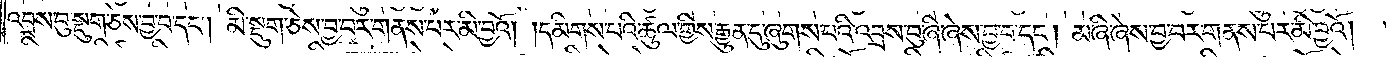འབྲས་བུ་སྡུག་ཅེས་བྱ་བ་དང༌། མི་སྡུག་ཅེས་བྱ་བར་གནས་པར་མི་བྱའོ། །དམིགས་པའི་ཚུལ་གྱིས། རྒྱུན་དུ་ཞུགས་པའི་འབྲས་བུ་ཞི་ཞེས་བྱ་བ་དང༌། མ་ཞི་ཞེས་བྱ་བར་གནས་པར་མི་བྱའོ།
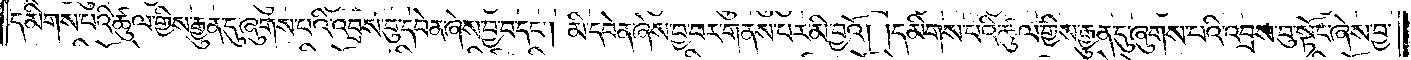དམིགས་པའི་ཚུལ་གྱིས་རྒྱུན་དུ་ཞུགས་པའི་འབྲས་བུ་དབེན་ཞེས་བྱ་བ་དང༌། མི་དབེན་ཞེས་བྱ་བར་གནས་པར་མི་བྱའོ། །དམིགས་པའི་ཚུལ་གྱིས་རྒྱུན་དུ་ཞུགས་པའི་འབྲས་བུ་སྟོང་ཞེས་བྱ་
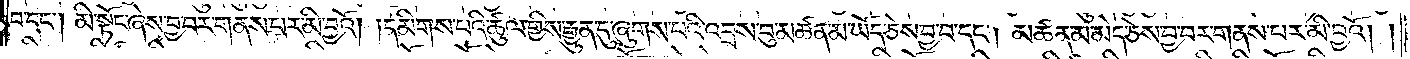བ་དང༌། མི་སྟོང་ཞེས་བྱ་བར་གནས་པར་མི་བྱའོ། །དམིགས་པའི་ཚུལ་གྱིས་རྒྱུན་དུ་ཞུགས་པའི་འབྲས་བུ་མཚན་མ་ཡོད་ཅེས་བྱ་བ་དང༌། མཚན་མ་མེད་ཅེས་བྱ་བར་གནས་པར་མི་བྱའོ། །
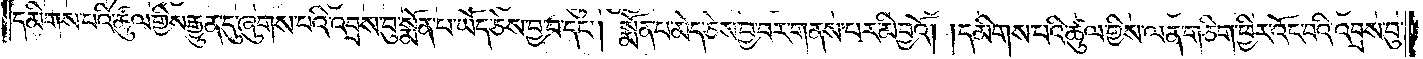དམིགས་པའི་ཚུལ་གྱིས་རྒྱུན་དུ་ཞུགས་པའི་འབྲས་བུ་སྨོན་པ་ཡོད་ཅེས་བྱ་བ་དང༌། སྨོན་པ་མེད་ཅེས་བྱ་བར་གནས་པར་མི་བྱའོ། །དམིགས་པའི་ཚུལ་གྱིས་ལན་ཅིག་ཕྱིར་འོང་བའི་འབྲས་བུ་
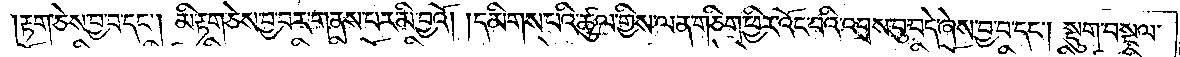རྟག་ཅེས་བྱ་བ་དང༌། མི་རྟག་ཅེས་བྱ་བར་གནས་པར་མི་བྱའོ། །དམིགས་པའི་ཚུལ་གྱིས་ལན་ཅིག་ཕྱིར་འོང་བའི་འབྲས་བུ་བདེ་ཞེས་བྱ་བ་དང༌། སྡུག་བསྔལ་
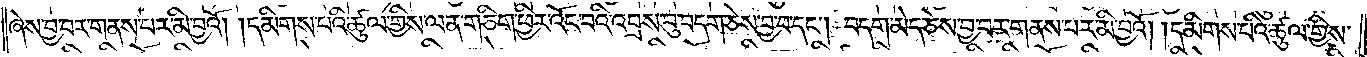ཞེས་བྱ་བར་གནས་པར་མི་བྱའོ། །དམིགས་པའི་ཚུལ་གྱིས་ལན་ཅིག་ཕྱིར་འོང་བའི་འབྲས་བུ་བདག་ཅེས་བྱ་བ་དང༌། བདག་མེད་ཅེས་བྱ་བར་གནས་པར་མི་བྱའོ། །དམིགས་པའི་ཚུལ་གྱིས་
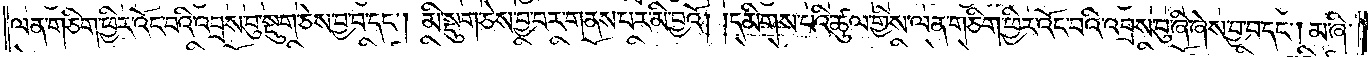ལན་ཅིག་ཕྱིར་འོང་བའི་འབྲས་བུ་སྡུག་ཅེས་བྱ་བ་དང༌། མི་སྡུག་ཅེས་བྱ་བར་གནས་པར་མི་བྱའོ། །དམིགས་པའི་ཚུལ་གྱིས་ལན་ཅིག་ཕྱིར་འོང་བའི་འབྲས་བུ་ཞི་ཞེས་བྱ་བ་དང༌། མ་ཞི་
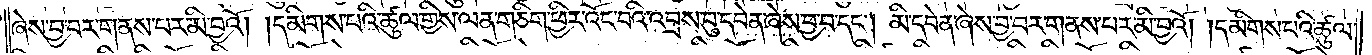ཞེས་བྱ་བར་གནས་པར་མི་བྱའོ། །དམིགས་པའི་ཚུལ་གྱིས་ལན་ཅིག་ཕྱིར་འོང་བའི་འབྲས་བུ་དབེན་ཞེས་བྱ་བ་དང༌། མི་དབེན་ཞེས་བྱ་བར་གནས་པར་མི་བྱའོ། །དམིགས་པའི་ཚུལ་
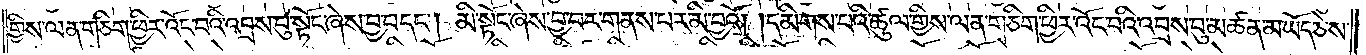གྱིས་ལན་ཅིག་ཕྱིར་འོང་བའི་འབྲས་བུ་སྟོང་ཞེས་བྱ་བ་དང༌། མི་སྟོང་ཞེས་བྱ་བར་གནས་པར་མི་བྱའོ། །དམིགས་པའི་ཚུལ་གྱིས་ལན་ཅིག་ཕྱིར་འོང་བའི་འབྲས་བུ་མཚན་མ་ཡོད་ཅེས་
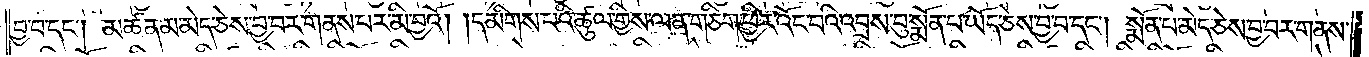བྱ་བ་དང༌། མཚན་མ་མེད་ཅེས་བྱ་བར་གནས་པར་མི་བྱའོ། །དམིགས་པའི་ཚུལ་གྱིས་ལན་ཅིག་ཕྱིར་འོང་བའི་འབྲས་བུ་སྨོན་པ་ཡོད་ཅེས་བྱ་བ་དང༌། སྨོན་པ་མེད་ཅེས་བྱ་བར་གནས་
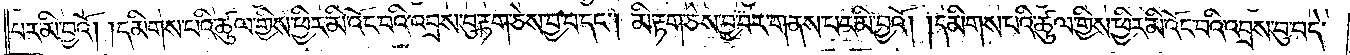པར་མི་བྱའོ། །དམིགས་པའི་ཚུལ་གྱིས་ཕྱིར་མི་འོང་བའི་འབྲས་བུ་རྟག་ཅེས་བྱ་བ་དང༌། མི་རྟག་ཅེས་བྱ་བར་གནས་པར་མི་བྱའོ། །དམིགས་པའི་ཚུལ་གྱིས་ཕྱིར་མི་འོང་བའི་འབྲས་བུ་བདེ་
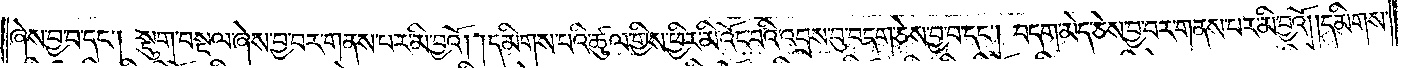ཞེས་བྱ་བ་དང༌། སྡུག་བསྔལ་ཞེས་བྱ་བར་གནས་པར་མི་བྱའོ། །དམིགས་པའི་ཚུལ་གྱིས་ཕྱིར་མི་འོང་བའི་འབྲས་བུ་བདག་ཅེས་བྱ་བ་དང༌། བདག་མེད་ཅེས་བྱ་བར་གནས་པར་མི་བྱའོ། །དམིགས་
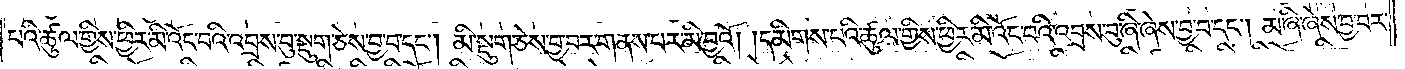པའི་ཚུལ་གྱིས་ཕྱིར་མི་འོང་བའི་འབྲས་བུ་སྡུག་ཅེས་བྱ་བ་དང༌། མི་སྡུག་ཅེས་བྱ་བར་གནས་པར་མི་བྱའོ། །དམིགས་པའི་ཚུལ་གྱིས་ཕྱིར་མི་འོང་བའི་འབྲས་བུ་ཞི་ཞེས་བྱ་བ་དང༌། མ་ཞི་ཞེས་བྱ་བར་
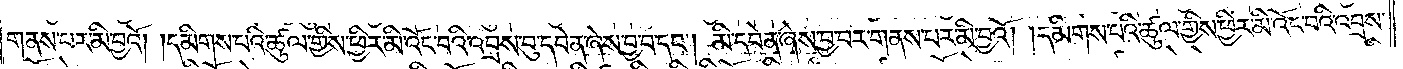གནས་པར་མི་བྱའོ། །དམིགས་པའི་ཚུལ་གྱིས་ཕྱིར་མི་འོང་བའི་འབྲས་བུ་དབེན་ཞེས་བྱ་བ་དང༌། མི་དབེན་ཞེས་བྱ་བར་གནས་པར་མི་བྱའོ། །དམིགས་པའི་ཚུལ་གྱིས་ཕྱིར་མི་འོང་བའི་འབྲས་
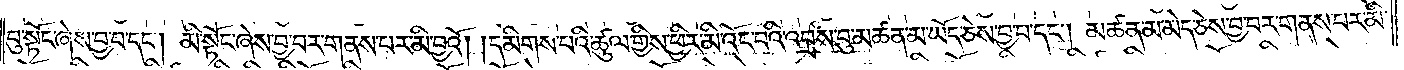བུ་སྟོང་ཞེས་བྱ་བ་དང༌། མི་སྟོང་ཞེས་བྱ་བར་གནས་པར་མི་བྱའོ། །དམིགས་པའི་ཚུལ་གྱིས་ཕྱིར་མི་འོང་བའི་འབྲས་བུ་མཚན་མ་ཡོད་ཅེས་བྱ་བ་དང༌། མཚན་མ་མེད་ཅེས་བྱ་བར་གནས་པར་མི་
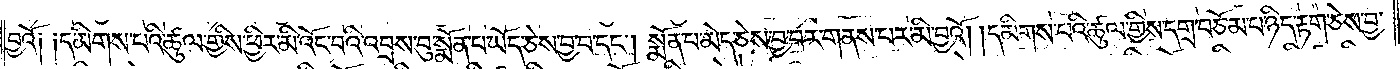བྱའོ༏ ༏དམིགས་པའི་ཚུལ་གྱིས་ཕྱིར་མི་འོང་བའི་འབྲས་བུ་སྨོན་པ་ཡོད་ཅེས་བྱ་བ་དང༌། སྨོན་པ་མེད་ཅེས་བྱ་བར་གནས་པར་མི་བྱའོ། །དམིགས་པའི་ཚུལ་གྱིས་དགྲ་བཅོམ་པ་ཉིད་རྟག་ཅེས་བྱ་
